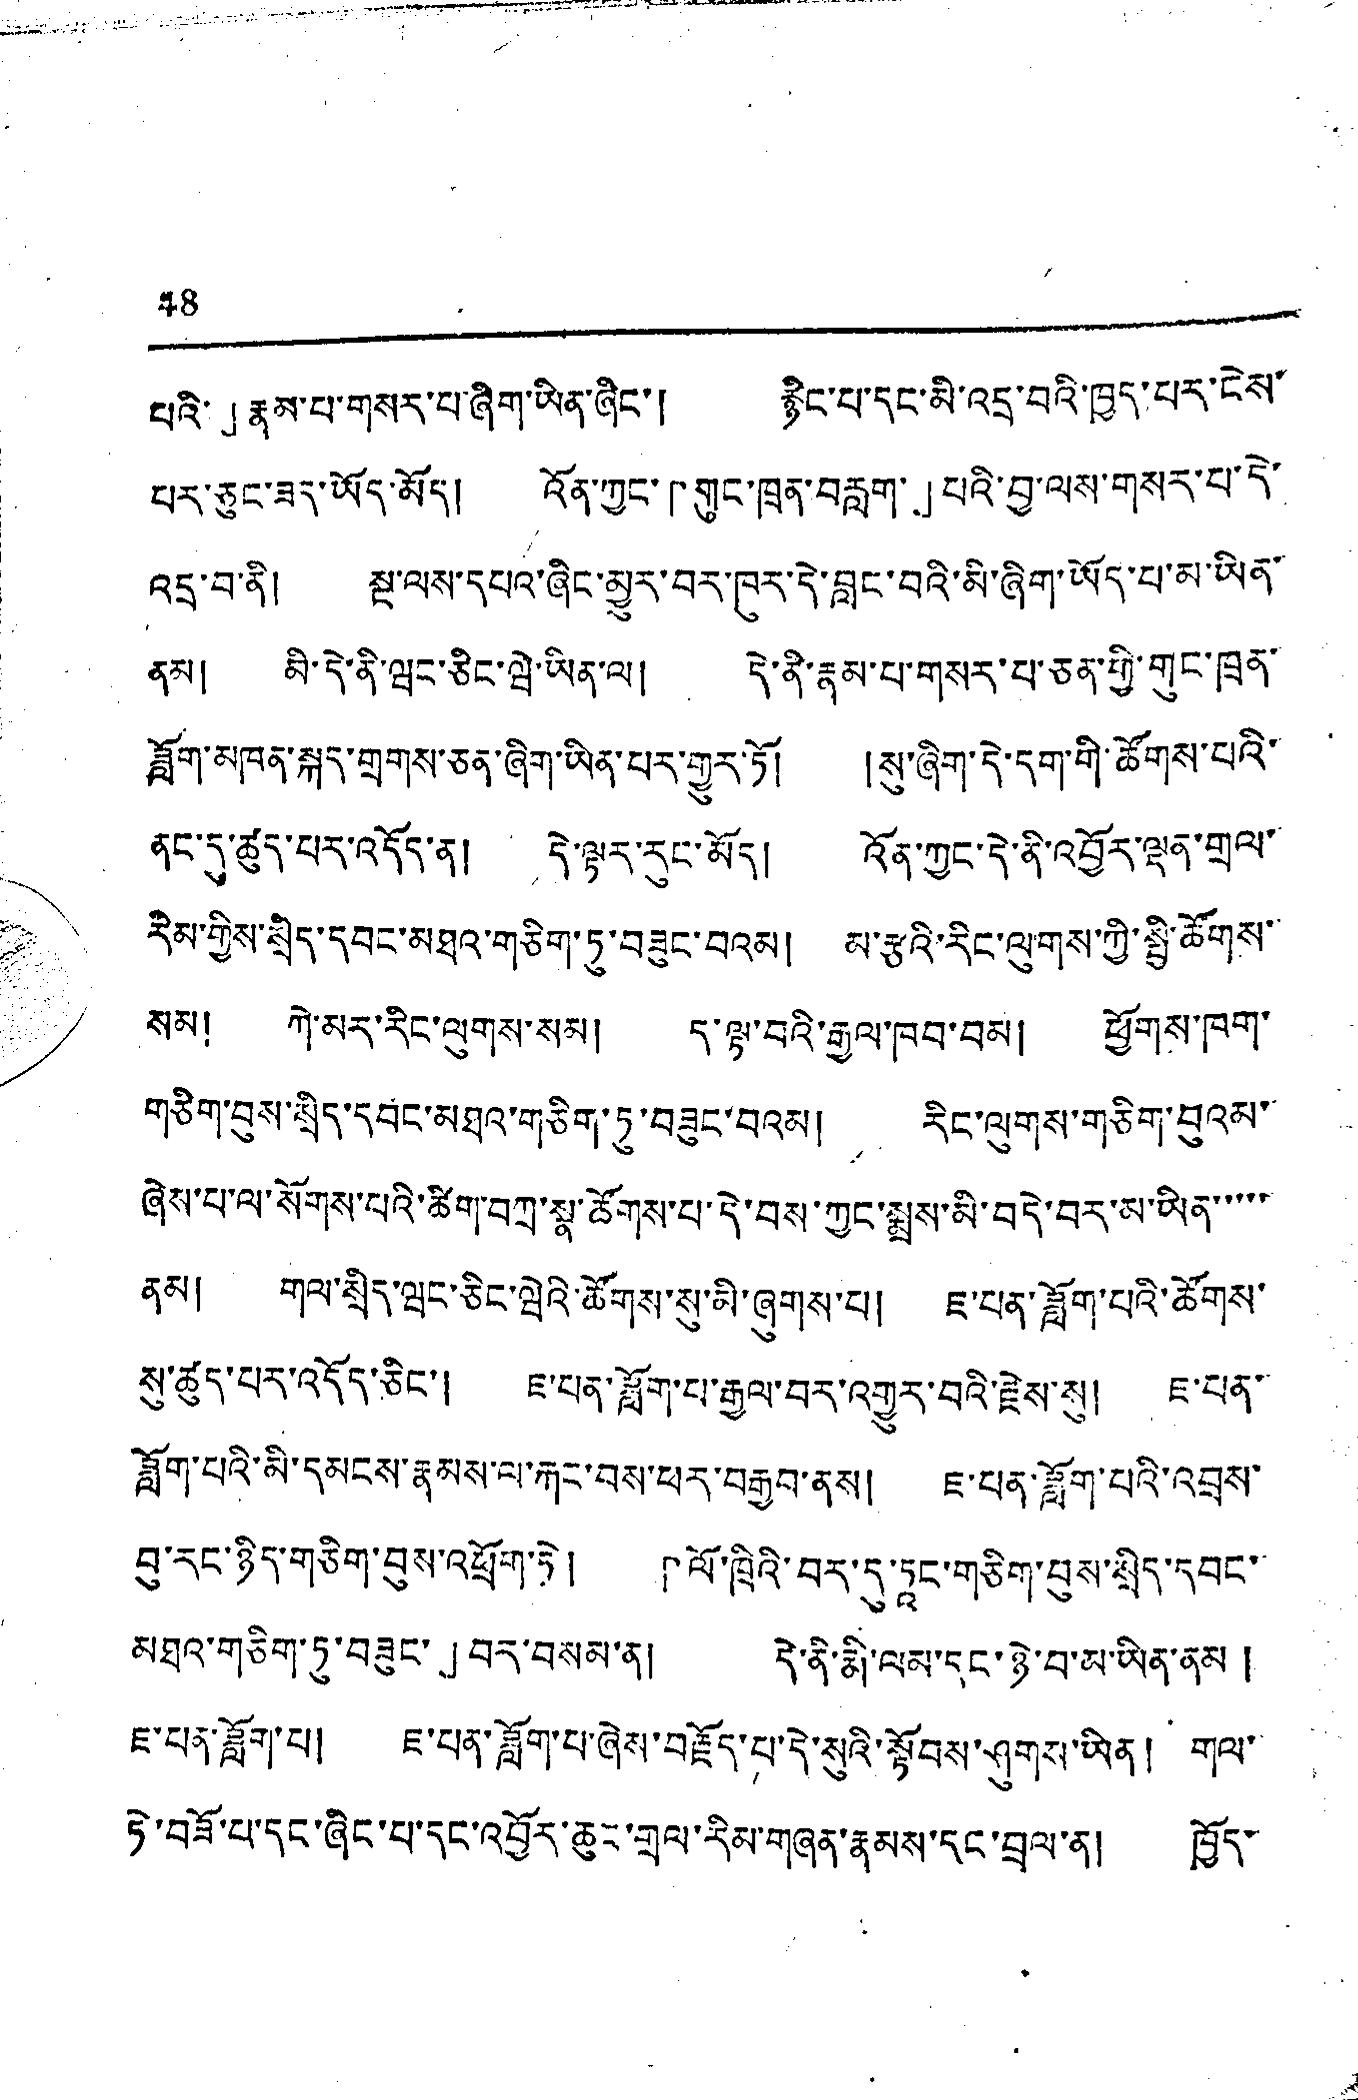48
པའི་」རྣམ་པ་གསར་པ་ཞིག་ཡིན་ཞིང་། རྙིང་པ་དང་མི་འདྲ་བའི་ཁྱད་པར་ངེས་
པར་ཅུང་ཟད་ཡོད་མོད། འོན་ཀྱང་「གུང་ཁྲན་བརླག་」པའི་བ་ལས་གསར་པ་དེ་
འདྲ་བ་ནི། སྔ་ལས་དཔའ་ཞིང་མྱུར་བར་ཁུར་དེ་བླང་བའི་མི་ཞིག་ཡོད་པ་མ་ཡིན་
ནམ། མི་དེ་ནི་ཝང་ཅིང་ཝེ་ཡིན་ལ། དེ་ནི་རྣམ་པ་གསར་པ་ཅན་གྱི་གུང་ཁྲན་
ཟློག་མཁན་སྐད་གྲགས་ཅན་ཞིག་ཡིན་པར་གྱུར་ཏོ། །སུ་ཞིག་དེ་དག་གི་ཚོགས་པའི་
ནང་དུ་ཚུད་པར་འདོད་ན། དེ་ལྟར་རུང་མོད། འོན་ཀྱང་དེ་ནི་འབྱོར་ལྡན་གྲལ་
རིམ་གྱིས་སྲིད་དབང་མཐའ་གཅིག་ཏུ་བཟུང་བའམ། མ་རྩའི་རིང་ལུགས་ཀྱི་སྤྱི་ཚོགས་
སམ། ཀེ་མར་རིང་ལུགས་སུམ། ད་ལྟ་བའི་རྒྱལ་ཁབ་བམ། ཕྱོགས་ཁག
གཅིག་བུས་སྲིད་དབང་མཐའ་གཅིག་ཏུ་བཟུང་བའམ། རིང་ལུགས་གཅིག་བུའམ་
ཞེས་པ་ལ་སོགས་པའི་ཚིག་བཀྲ་སྣ་ཚོགས་པ་དེ་བས་ཀྱང་སྨྲས་མི་བདེ་བར་མ་ཡིན་་་་་
ནམ། གལ་སྲིད་ཝང་ཅིང་ཝེའི་ཚོགས་སུ་མི་ཞུགས་པ། ཇ་པན་ཟློག་པའི་ཚོགས་
སུ་ཚུད་པར་འདོད་ཅིང་། ཇ་པན་ཟློག་པ་རྒྱལ་བར་འགྱུར་བའི་རྗེས་སུ། ཇ་པན་
ཟློག་པའི་མི་དམངས་རྣམས་ལ་རྐང་བས་ཕར་བརྒྱབ་ནས། ཇ་པན་ཟློག་པའི་འབྲས་
བུ་རང་ཉིད་གཅིག་བུས་འཕྲོག་ཏེ། 「ལོ་ཁྲིའི་བར་དུ་ཏཱང་གཅིག་བུས་སྲིད་དབང་
མཐའ་གཅིག་ཏུ་བཟུང་」བར་བསམ་ན། དེ་ནི་མི་ལམ་དང་ཉེ་བ་མ་ཡིན་ནམ །
ཇ་པན་ཟློག་པ། ཇ་པན་ཟློག་པ་ཞེས་བརྗོད་པ་དེ་སུའི་སྟོབས་ཤུགས་ཡིན། གལ་
ཏེ་བཟོ་པ་དང་ཞིང་པ་དང་འབྱོར་ཆུང་གྲལ་རིམ་གཞན་རྣམས་དང་བྲལ་ན། ཁྱོད་
